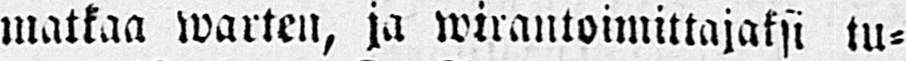matkaa warten, ja wirantoimittajaksi tu-
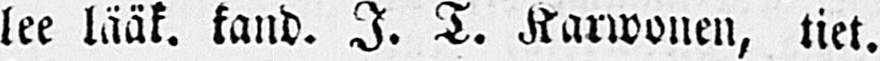lee lääk. kand. I. T. Karwonen, tiet.
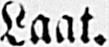Laat.
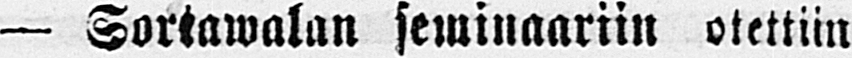— Sortawalan seminaariin otettiin
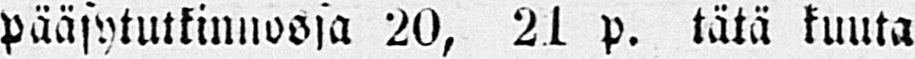pääsytutkinnossa 20, 21 p. tätä kuuta
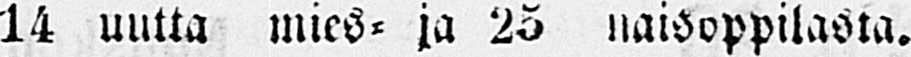14 uutta mies- ja 25 naisoppilasta.
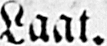Laat.
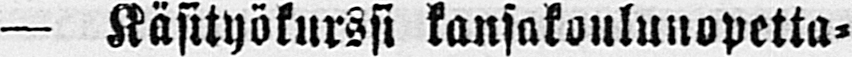— Käsityökurssi kansakoulunopetta-
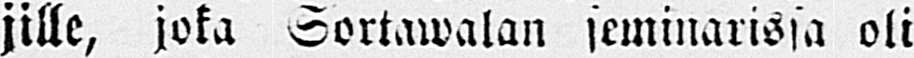jille, joka Sortawalan seminarissa oli
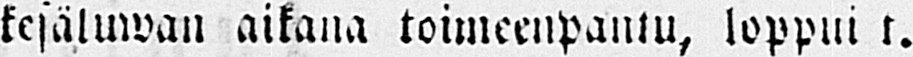kesäluwan aikana toimeenpantu, loppui t.
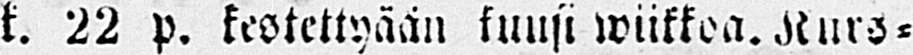k. 22 p. kestettyään kuusi wiikkoa. Kurs-
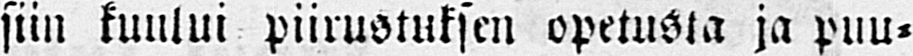siin kuului piirustuksen opetusta ja puu-
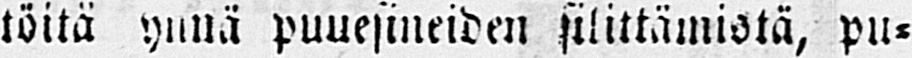töitä ynnä puuesineiden silittämistä, pu-
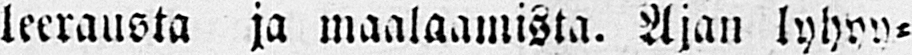leerausta ja maalaamista. Ajan lyhyy-
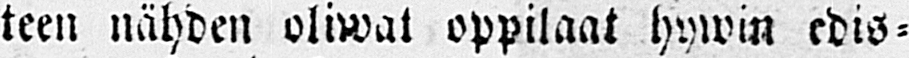teen nähden oliwat oppilaat hywin edis-
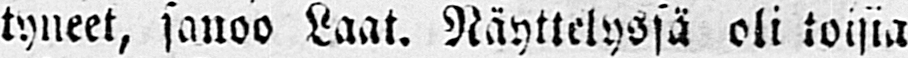tyneet, sanoo Laat. Näyttelyssä oli toisia
